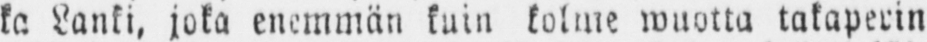ka Lanki, joka enemmän kuin kolme wuotta takaperin
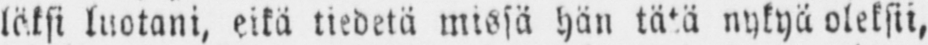läksi luotani, eikä tiedetä missä hän tätä nykyä oleksii,
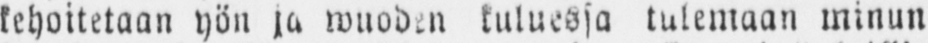kehoitetaan yön ja wuoden kuluessa tulemaan minun
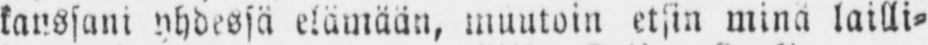kanssani yhdessä elämään, muutoin etsin minä lailli-
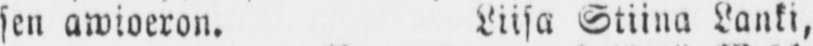sen awioeron. Liisa Stiina Lanki,
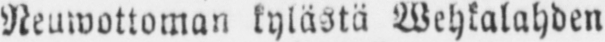Neuwottoman kylästä Wehkalahden
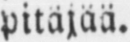pitäjää.
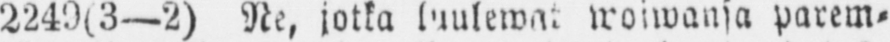2249(3 —2) Ne, jotka luulewat woiwansa parem-
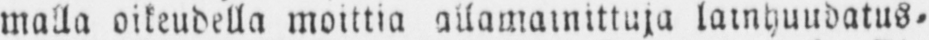malla oikeudella moittia allamainittuja lainhuudatus-
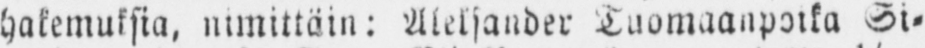hakemuksia, nimittäin: Aleksander Tuomaanpoika Si-
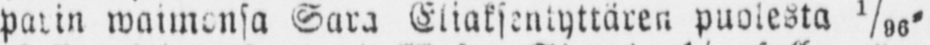parin waimonsa Sara Eliaksentyttären puolesta 1/96-
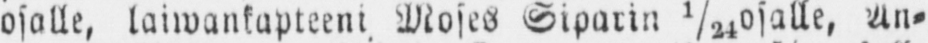osalle, laiwankapteeni Moses Siparin 1/24osalle An-
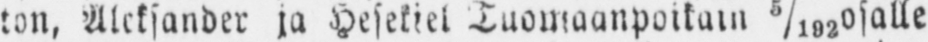ton, Aleksander ja Hesekiel Tuomaanpoikain 4/192osalle
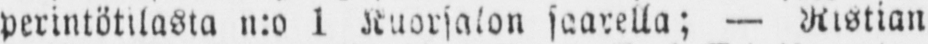perintötilasta n:o 1 Kuorsalon saarella; — Ristian
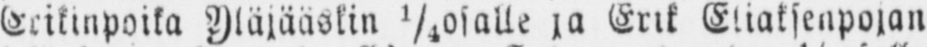Erikinpoika Yläjääskin ¼osalle ja Erik Eliaksenpojan
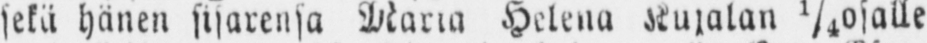sekä hänen sisarensa Maria Helena Kujalan ¼osalle
